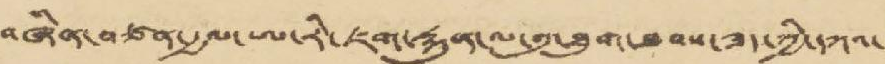བཞིན་བཙན་རྒྱལ་ཨ་རི་ཇག་རྐུན་ལ་གུ་ཐུག་ཐབས་ཟད་ཀྱི་དཀའ་
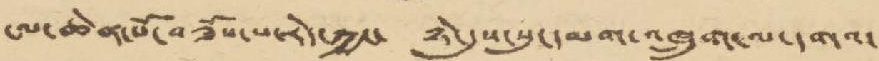ངལ་ཆེན་པོ་བཟོས་པ་རེད་ཀྱང་ ཉེ་དུས་སུ་དམག་འཁྲུག་ལ་དགའ་
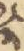༣
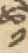༡
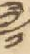༡
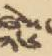༢༦
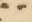་་
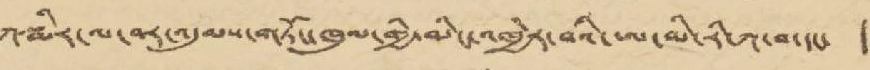ཀ་སྨིར་ལ་བར་འདུམས་གཏོང་ཁུལ་གྱི་མིང་འཁྱེར་བའི་ཨ་མི་རི་ཀ་བ་དང་ །
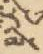མི་
